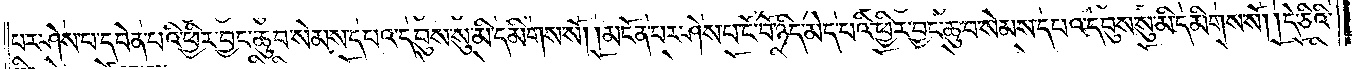པར་ཤེས་པ་དབེན་པའི་ཕྱིར་བྱང་ཆུབ་སེམས་དཔའ་དབུས་སུ་མི་དམིགས་སོ། །མངོན་པར་ཤེས་པ་ངོ་བོ་ཉིད་མེད་པའི་ཕྱིར་བྱང་ཆུབ་སེམས་དཔའ་དབུས་སུ་མི་དམིགས་སོ། །དེ་ཅིའི་
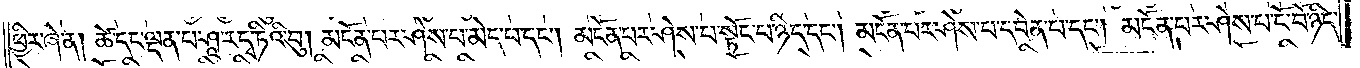ཕྱིར་ཞེ་ན། ཚེ་དང་ལྡན་པ་ཤཱ་རདྭ་ཏིའི་བུ། མངོན་པར་ཤེས་པ་མེད་པ་དང༌། མངོན་པར་ཤེས་པ་སྟོང་པ་ཉིད་དང༌། མངོན་པར་ཤེས་པ་དབེན་པ་དང༌། མངོན་པར་ཤེས་པ་ངོ་བོ་ཉིད་
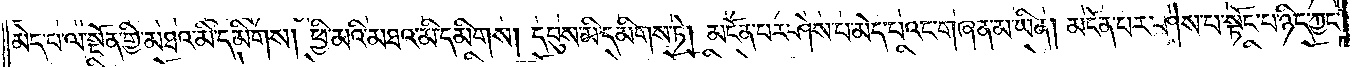མེད་པ་ལ་སྔོན་གྱི་མཐའ་མི་དམིགས། ཕྱི་མའི་མཐའ་མི་དམིགས། དབུས་མི་དམིགས་ཏེ། མངོན་པར་ཤེས་པ་མེད་པའང་གཞན་མ་ཡིན། མངོན་པར་ཤེས་པ་སྟོང་པ་ཉིད་ཀྱང་
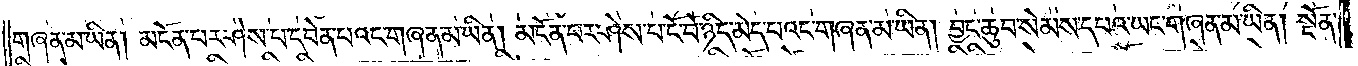གཞན་མ་ཡིན། མངོན་པར་ཤེས་པ་དབེན་པའང་གཞན་མ་ཡིན། མངོན་པར་ཤེས་པ་ངོ་བོ་ཉིད་མེད་པའང་གཞན་མ་ཡིན། བྱང་ཆུབ་སེམས་དཔའ་ཡང་གཞན་མ་ཡིན། སྔོན་
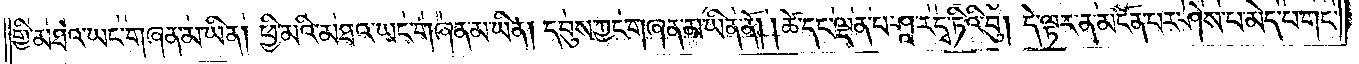གྱི་མཐའ་ཡང་གཞན་མ་ཡིན། ཕྱི་མའི་མཐའ་ཡང་གཞན་མ་ཡིན། དབུས་ཀྱང་གཞན་མ་ཡིན་ནོ། །ཚེ་དང་ལྡན་པ་ཤཱ་རདྭ་ཏིའི་བུ། དེ་ལྟར་ན་མངོན་པར་ཤེས་པ་མེད་པ་གང་
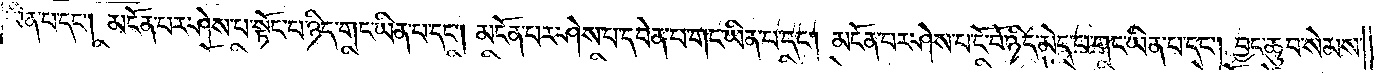ཡིན་པ་དང༌། མངོན་པར་ཤེས་པ་སྟོང་པ་ཉིད་གང་ཡིན་པ་དང༌། མངོན་པར་ཤེས་པ་དབེན་པ་གང་ཡིན་པ་དང༌། མངོན་པར་ཤེས་པ་ངོ་བོ་ཉིད་མེད་པ་གང་ཡིན་པ་དང༌། བྱང་ཆུབ་སེམས་
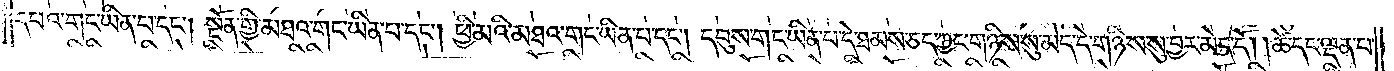དཔའ་གང་ཡིན་པ་དང༌། སྔོན་གྱི་མཐའ་གང་ཡིན་པ་དང༌། ཕྱི་མའི་མཐའ་གང་ཡིན་པ་དང༌། དབུས་གང་ཡིན་པ་དེ་ཐམས་ཅད་ཀྱང་གཉིས་སུ་མེད་དེ་གཉིས་སུ་བྱར་མེད་དོ། །ཚེ་དང་ལྡན་པ་
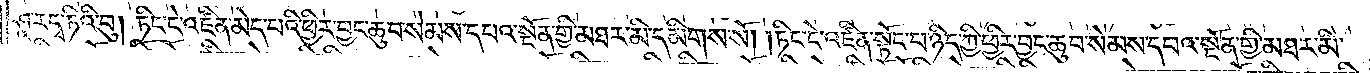ཤཱ་ར་དྭ་ཏིའི་བུ། ཏིང་ངེ་འཛིན་མེད་པའི་ཕྱིར་བྱང་ཆུབ་སེམས་དཔའ་སྔོན་གྱི་མཐར་མི་དམིགས་སོ། །ཏིང་ངེ་འཛིན་སྟོང་པ་ཉིད་ཀྱི་ཕྱིར་བྱང་ཆུབ་སེམས་དཔའ་སྔོན་གྱི་མཐར་མི་
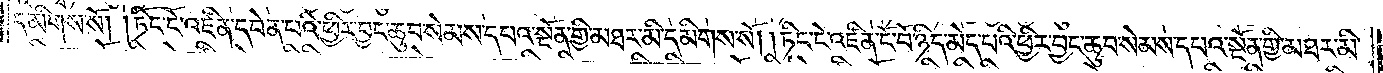དམིགས་སོ། །ཏིང་ངེ་འཛིན་དབེན་པའི་ཕྱིར་བྱང་ཆུབ་སེམས་དཔའ་སྔོན་གྱི་མཐར་མི་དམིགས་སོ། །ཏིང་ངེ་འཛིན་ངོ་བོ་ཉིད་མེད་པའི་ཕྱིར་བྱང་ཆུབ་སེམས་དཔའ་སྔོན་གྱི་མཐར་མི་
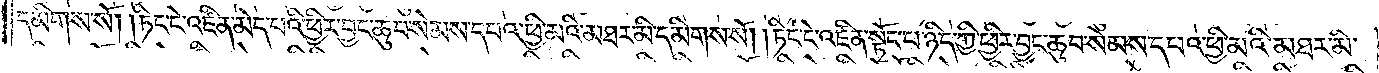དམིགས་སོ། །ཏིང་ངེ་འཛིན་མེད་པའི་ཕྱིར་བྱང་ཆུབ་སེམས་དཔའ་ཕྱི་མའི་མཐར་མི་དམིགས་སོ། །ཏིང་ངེ་འཛིན་སྟོང་པ་ཉིད་ཀྱི་ཕྱིར་བྱང་ཆུབ་སེམས་དཔའ་ཕྱི་མའི་མཐར་མི་
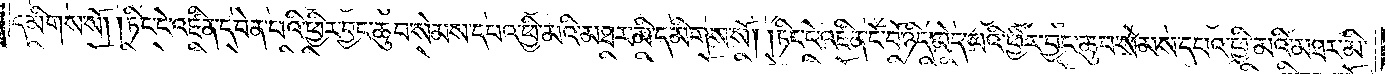དམིགས་སོ། །ཏིང་ངེ་འཛིན་དབེན་པའི་ཕྱིར་བྱང་ཆུབ་སེམས་དཔའ་ཕྱི་མའི་མཐར་མི་དམིགས་སོ། །ཏིང་ངེ་འཛིན་ངོ་བོ་ཉིད་མེད་པའི་ཕྱིར་བྱང་ཆུབ་སེམས་དཔའ་ཕྱི་མའི་མཐར་མི་
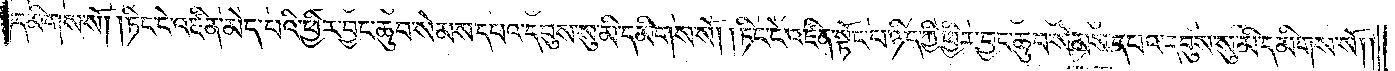དམིགས་སོ། །ཏིང་ངེ་འཛིན་མེད་པའི་ཕྱིར་བྱང་ཆུབ་སེམས་དཔའ་དབུས་སུ་མི་དམིགས་སོ། །ཏིང་ངེ་འཛིན་སྟོང་པ་ཉིད་ཀྱི་ཕྱིར་བྱང་ཆུབ་སེམས་དཔའ་དབུས་སུ་མི་དམིགས་སོ། །
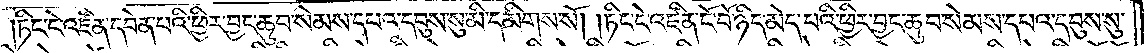ཏིང་ངེ་འཛིན་དབེན་པའི་ཕྱིར་བྱང་ཆུབ་སེམས་དཔའ་དབུས་སུ་མི་དམིགས་སོ། །ཏིང་ངེ་འཛིན་ངོ་བོ་ཉིད་མེད་པའི་ཕྱིར་བྱང་ཆུབ་སེམས་དཔའ་དབུས་སུ་
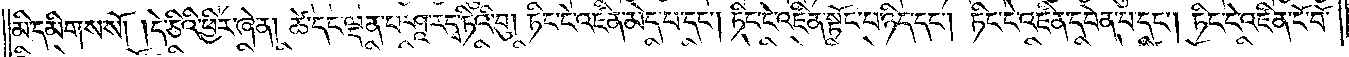མི་དམིགས་སོ། །དེ་ཅིའི་ཕྱིར་ཞེ་ན། ཚེ་དང་ལྡན་པ་ཤཱ་ར་དྭ་ཏིའི་བུ། ཏིང་ངེ་འཛིན་མེད་པ་དང༌། ཏིང་ངེ་འཛིན་སྟོང་པ་ཉིད་དང༌། ཏིང་ངེ་འཛིན་དབེན་པ་དང༌། ཏིང་ངེ་འཛིན་ངོ་བོ་
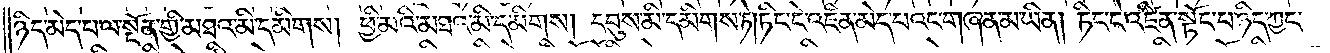ཉིད་མེད་པ་ལ་སྔོན་གྱི་མཐའ་མི་དམིགས། ཕྱི་མའི་མཐའ་མི་དམིགས། དབུས་མི་དམིགས་ཏེ། ཏིང་ངེ་འཛིན་མེད་པའང་གཞན་མ་ཡིན། ཏིང་ངེ་འཛིན་སྟོང་པ་ཉིད་ཀྱང་
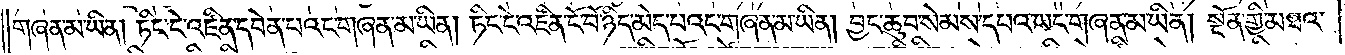གཞན་མ་ཡིན། ཏིང་ངེ་འཛིན་དབེན་པའང་གཞན་མ་ཡིན། ཏིང་ངེ་འཛིན་ངོ་བོ་ཉིད་མེད་པའང་གཞན་མ་ཡིན། བྱང་ཆུབ་སེམས་དཔའ་ཡང་གཞན་མ་ཡིན། སྔོན་གྱི་མཐའ་
